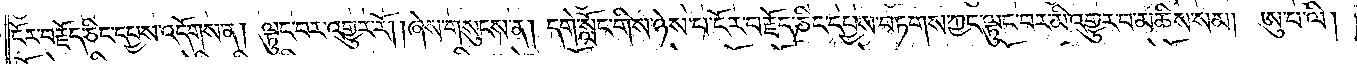ངོར་བརྗོད་ཅིང་དཔྱས་འདོགས་ན། ལྟུང་བར་འགྱུར་རོ། །ཞེས་གསུངས་ན། དགེ་སློང་གིས་ཉེས་པ་ངོར་བརྗོད་ཅིང་དཔྱས་བཏགས་ཀྱང་ལྟུང་བར་མི་འགྱུར་བ་མཆིས་སམ། ཨུ་པ་ལི།
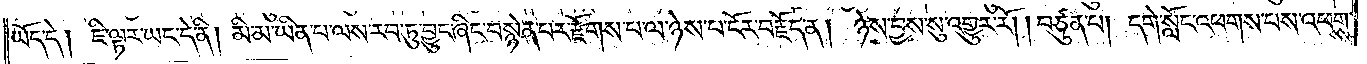ཡོད་དེ། ཇི་ལྟར་ཡང་དེ་ནི། མི་མ་ཡིན་པ་ལས་རབ་ཏུ་བྱུང་ཞིང་བསྙེན་པར་རྫོགས་པ་ལ་ཉེས་པ་ངོར་བརྗོད་ན། ཉེས་བྱས་སུ་འགྱུར་རོ། །བཙུན་པ། དགེ་སློང་འཕགས་པས་འཕགས་
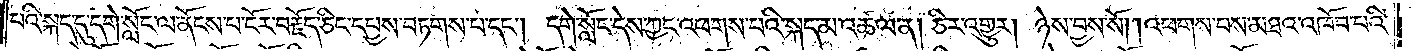པའི་སྐད་དུ་དགེ་སློང་ལ་ནོངས་པ་ངོར་བརྗོད་ཅིང་དཔྱས་བཏགས་པ་དང༌། དགེ་སློང་དེས་ཀྱང་འཕགས་པའི་སྐད་མ་འཚལ་ན། ཅིར་འགྱུར། ཉེས་བྱས་སོ། །འཕགས་པས་མཐར་འཁོབ་པའི་
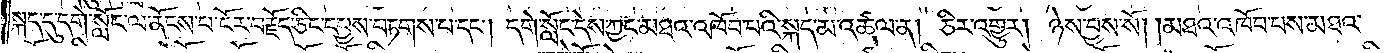སྐད་དུ་དགེ་སློང་ལ་ནོངས་པ་ངོར་བརྗོད་ཅིང་དཔྱས་བཏགས་པ་དང༌། དགེ་སློང་དེས་ཀྱང་མཐའ་འཁོབ་པའི་སྐད་མ་འཚལ་ན། ཅིར་འགྱུར། ཉེས་བྱས་སོ། །མཐའ་འཁོབ་པས་མཐའ་
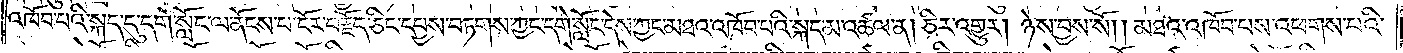འཁོབ་པའི་སྐད་དུ་དགེ་སློང་ལ་ནོངས་པ་ངོར་བརྗོད་ཅིང་དཔྱས་བཏགས་ཀྱང་དགེ་སློང་དེས་ཀྱང་མཐའ་འཁོབ་པའི་སྐད་མ་འཚལ་ན། ཅིར་འགྱུར། ཉེས་བྱས་སོ། །མཐའ་འཁོབ་པས་འཕགས་པའི་
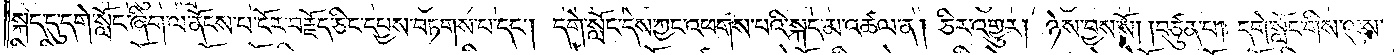སྐད་དུ་དགེ་སློང་ཞིག་ལ་ནོངས་པ་ངོར་བརྗོད་ཅིང་དཔྱས་བཏགས་པ་དང༌། དགེ་སློང་དེས་ཀྱང་འཕགས་པའི་སྐད་མ་འཚལ་ན། ཅིར་འགྱུར། ཉེས་བྱས་སོ། །བཙུན་པ། དགེ་སློང་གིས་ལུས་
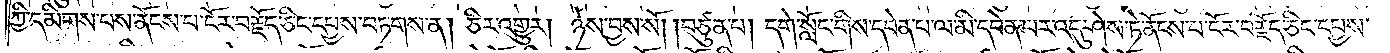ཀྱི་དམིགས་པས་ནོངས་པ་ངོར་བརྗོད་ཅིང་དཔྱས་བཏགས་ན། ཅིར་འགྱུར། ཉེས་བྱས་སོ། །བཙུན་པ། དགེ་སློང་གིས་དབེན་པ་ལ་མི་དབེན་པར་འདུ་ཤེས་ཏེ་ནོངས་པ་ངོར་བརྗོད་ཅིང་དཔྱས་
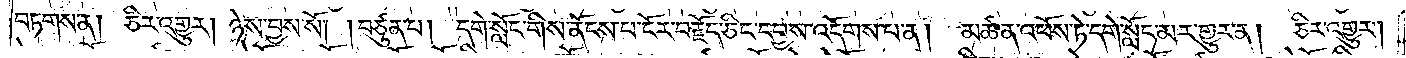བཏགས་ན། ཅིར་འགྱུར། ཉེས་བྱས་སོ། །བཙུན་པ། དགེ་སློང་གིས་ནོངས་པ་ངོར་བརྗོད་ཅིང་དཔྱས་འདོགས་པ་ན། མཚན་འཕོས་ཏེ་དགེ་སློང་མར་གྱུར་ན། ཅིར་འགྱུར།
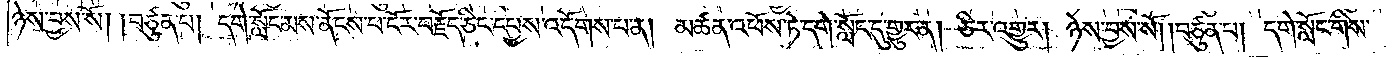ཉེས་བྱས་སོ། །བཙུན་པ། དགེ་སློང་མས་ནོངས་པ་ངོར་བརྗོད་ཅིང་དཔྱས་འདོགས་པ་ན། མཚན་འཕོས་ཏེ་དགེ་སློང་དུ་གྱུར་ན། ཅིར་འགྱུར། ཉེས་བྱས་སོ། །བཙུན་པ། དགེ་སློང་གིས་
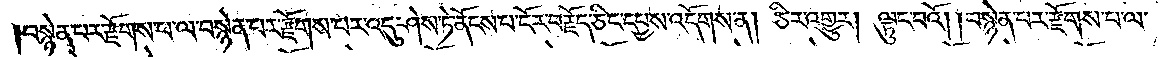།བསྙེན་པར་རྫོགས་པ་ལ་བསྙེན་པར་རྫོགས་པར་འདུ་ཤེས་ཏེ་ནོངས་པ་ངོར་བརྗོད་ཅིང་དཔྱས་འདོགས་ན། ཅིར་འགྱུར། ལྟུང་བའོ། །བསྙེན་པར་རྫོགས་པ་ལ་
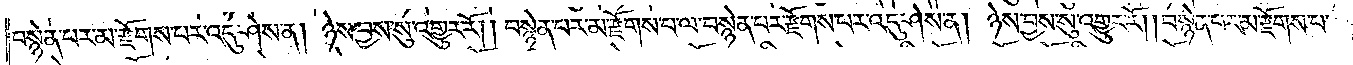བསྙེན་པར་མ་རྫོགས་པར་འདུ་ཤེས་ན། ཉེས་བྱས་སུ་འགྱུར་རོ། །བསྙེན་པར་མ་རྫོགས་པ་ལ་བསྙེན་པར་རྫོགས་པར་འདུ་ཤེས་ན། ཉེས་བྱས་སུ་འགྱུར་རོ། །བསྙེན་པར་མ་རྫོགས་པ་
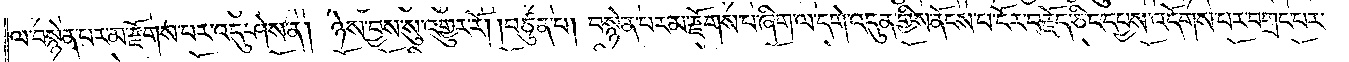ལ་བསྙེན་པར་མ་རྫོགས་པར་འདུ་ཤེས་ན། ཉེས་བྱས་སུ་འགྱུར་རོ། །བཙུན་པ། བསྙེན་པར་མ་རྫོགས་པ་ཞིག་ལ་དགེ་འདུན་གྱིས་ནོངས་པ་ངོར་བརྗོད་ཅིང་དཔྱས་འདོགས་པར་བགྲང་པར་
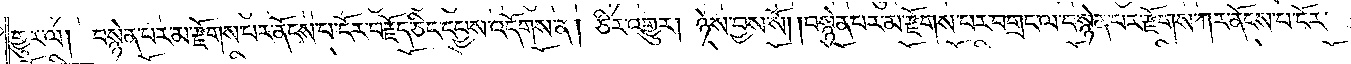གྱུར་ལ། བསྙེན་པར་མ་རྫོགས་པར་ནོངས་པ་ངོར་བརྗོད་ཅིང་དཔྱས་འདོགས་ན། ཅིར་འགྱུར། ཉེས་བྱས་སོ། །བསྙེན་པར་མ་རྫོགས་པར་བགྲང་ལ་བསྙེན་པར་རྫོགས་ཀར་ནོངས་པ་ངོར་
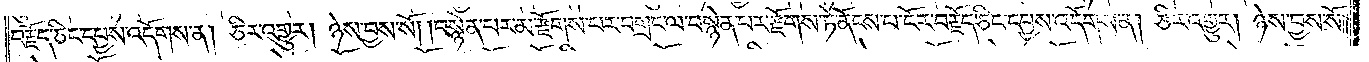བརྗོད་ཅིང་དཔྱས་འདོགས་ན། ཅིར་འགྱུར། ཉེས་བྱས་སོ། །བསྙེན་པར་མ་རྫོགས་པར་བགྲང་ལ་བསྙེན་པར་རྫོགས་ཏེ་ནོངས་པ་ངོར་བརྗོད་ཅིང་དཔྱས་འདོགས་ན། ཅིར་འགྱུར། ཉེས་བྱས་སོ༎
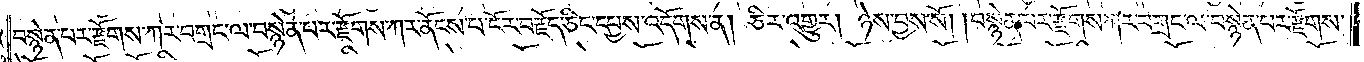བསྙེན་པར་རྫོགས་ཀར་བགྲང་ལ་བསྙེན་པར་རྫོགས་ཀར་ནོངས་པ་ངོར་བརྗོད་ཅིང་དཔྱས་འདོགས་ན། ཅིར་འགྱུར། ཉེས་བྱས་སོ། །བསྙེན་པར་རྫོགས་ཀར་བགྲང་ལ་བསྙེན་པར་རྫོགས་
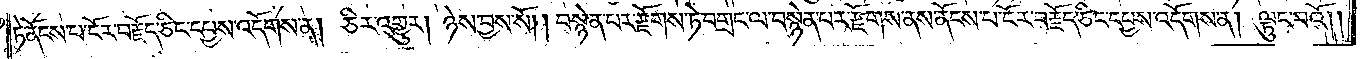ཏེ་ནོངས་པ་ངོར་བརྗོད་ཅིང་དཔྱས་འདོགས་ན། ཅིར་འགྱུར། ཉེས་བྱས་སོ། །བསྙེན་པར་རྫོགས་ཏེ་བགྲང་ལ་བསྙེན་པར་རྫོགས་ནས་ནོངས་པ་ངོར་བརྗོད་ཅིང་དཔྱས་འདོགས་ན། ལྟུང་བའོ། །
